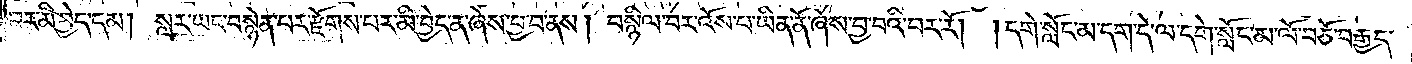བར་མི་བྱེད་དམ། སླར་ཡང་བསྙེན་པར་རྫོགས་པར་མི་བྱེད་ན་ཞེས་བྱ་བ་ནས། བསྙིལ་བར་འོས་པ་ཡིན་ནོ་ཞེས་བྱ་བའི་བར་རོ། །དགེ་སློང་མ་དག་དེ་ལ་དགེ་སློང་མ་ལོ་བཅོ་བརྒྱད་
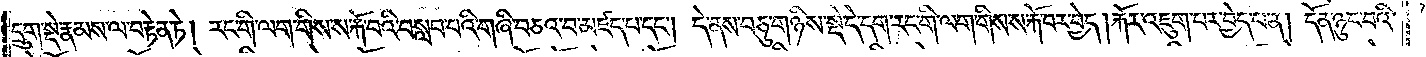དྲུག་སྡེ་རྣམས་ལ་བརྟེན་ཏེ། རང་གི་ལག་གིས་ས་རྐོ་བའི་བསླབ་པའི་གཞི་བཅའ་བ་མཛད་པ་དང༌། དེ་ནས་བཅུ་གཉིས་སྡེ་དེ་དག་རང་གི་ལག་གིས་ས་རྐོ་བར་བྱེད། རྐོར་འཇུག་པར་བྱེད་པ་ན། དོན་ཉུང་བའི་
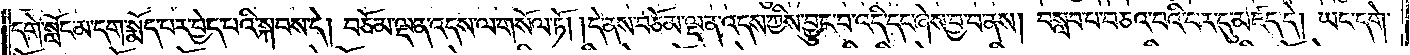དགེ་སློང་མ་དག་སྨོད་པར་བྱེད་པའི་སྐབས་དེ། བཅོམ་ལྡན་འདས་ལ་གསོལ་ཏོ། །དེ་ནས་བཅོམ་ལྡན་འདས་ཀྱིས་བྱུང་བ་འདི་དང་ཞེས་བྱ་བ་ནས། བསླབ་པ་བཅའ་བའི་བར་དུ་མཛད་དེ། ཡང་དགེ་
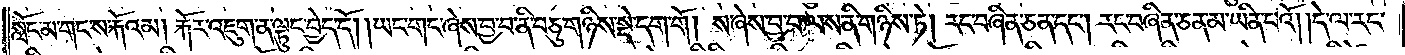སློང་མ་གང་ས་རྐོའམ། རྐོར་འཇུག་ན་ལྟུང་བྱེད་དོ། །ཡང་གང་ཞེས་བྱ་བ་ནི་བཅུ་གཉིས་སྡེ་དག་གོ། །ས་ཞེས་བྱ་བ་ལས་ནི་གཉིས་ཏེ། རང་བཞིན་ཅན་དང༌། རང་བཞིན་ཅན་མ་ཡིན་པའོ། །དེ་ལ་རང་
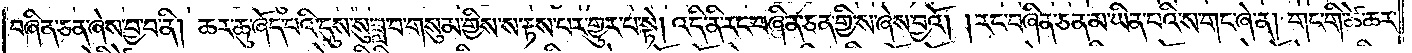བཞིན་ཅན་ཞེས་བྱ་བ་ནི། ཆར་ཆུ་ཞོད་པའི་དུས་སུ་ཟླ་བ་གསུམ་གྱིས་ས་རྟས་པར་གྱུར་པ་སྟེ། འདི་ནི་རང་བཞིན་ཅན་གྱི་ས་ཞེས་བྱའོ། །རང་བཞིན་ཅན་མ་ཡིན་པའི་ས་གང་ཞེ་ན། གང་གི་ཚེ་ཆར་
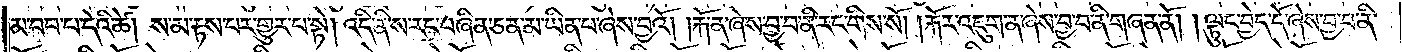མ་བབ་པ་དེའི་ཚེ། ས་མ་རྟས་པར་གྱུར་པ་སྟེ། འདི་ནི་ས་རང་བཞིན་ཅན་མ་ཡིན་པ་ཞེས་བྱའོ། །རྐོ་ན་ཞེས་བྱ་བ་ནི་རང་གིས་སོ། །རྐོར་འཇུག་ན་ཞེས་བྱ་བ་ནི་གཞན་ནོ། །ལྟུང་བྱེད་དོ་ཞེས་བྱ་བ་ནི་
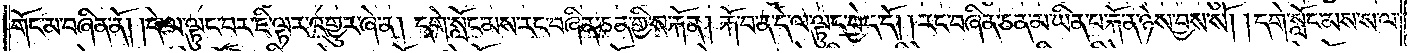གོང་མ་བཞིན་ནོ། །དེ་ལ་ལྟུང་བར་ཇི་ལྟར་འགྱུར་ཞེ་ན། དགེ་སློང་མས་རང་བཞིན་ཅན་གྱི་ས་རྐོ་ན། རྐོ་བ་ན་དེ་ལ་ལྟུང་བྱེད་དོ། །རང་བཞིན་ཅན་མ་ཡིན་པ་རྐོ་ན་ཉེས་བྱས་སོ། །དགེ་སློང་མས་ས་ལ་
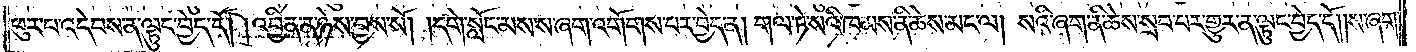ཕུར་པ་འདེབས་ན་ལྟུང་བྱེད་དོ། །འབྱིན་ན་ཉེས་བྱས་སོ། །དགེ་སློང་མས་ས་ཞག་འགོགས་པར་བྱེད་ན། གལ་ཏེ་སའི་ཁམས་ནི་ཆེས་མང་ལ། སའི་ཞག་ནི་ཆེས་སྲབ་པར་གྱུར་ན་ལྟུང་བྱེད་དོ། །ས་ཞག་
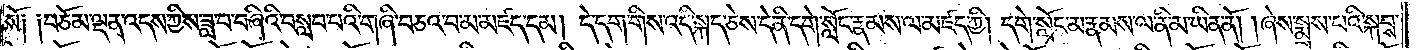སོ༑ ༑བཅོམ་ལྡན་འདས་ཀྱིས་ཟླ་བ་བཞིའི་བསླབ་པའི་གཞི་བཅའ་བ་མ་མཛད་དམ། དེ་དག་གིས་འདི་སྐད་ཅེས་དེ་ནི་དགེ་སློང་རྣམས་ལ་མཛད་ཀྱི། དགེ་སློང་མ་རྣམས་ལ་ནི་མ་ཡིན་ནོ། །ཞེས་སྨྲས་པའི་སྐབས་
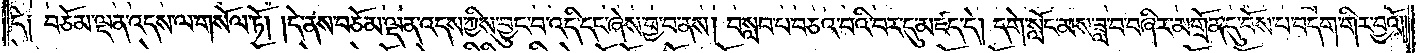དེ༑ བཅོམ་ལྡན་འདས་ལ་གསོལ་ཏོ། །དེ་ནས་བཅོམ་ལྡན་འདས་ཀྱིས་བྱུང་བ་འདི་དང་ཞེས་བྱ་བ་ནས། བསླབ་པ་བཅའ་བའི་བར་དུ་མཛད་དེ། དགེ་སློང་མས་ཟླ་བ་བཞིར་མགྲོན་དུ་བོས་པ་བདག་གིར་བྱའོ༎
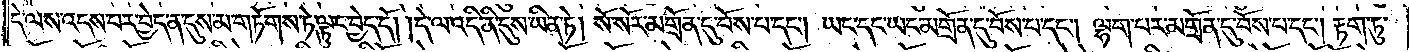དེ་ལས་འདས་པར་བྱེད་ན་དུས་མ་གཏོགས་ཏེ་ལྟུང་བྱེད་དོ། །དེ་ལ་འདི་ནི་དུས་ཡིན་ཏེ། སོ་སོར་མགྲོན་དུ་བོས་པ་དང༌། ཡང་དང་ཡང་མགྲོན་དུ་བོས་པ་དང༌། ལྷག་པར་མགྲོན་དུ་བོས་པ་དང༌། རྟག་ཏུ་
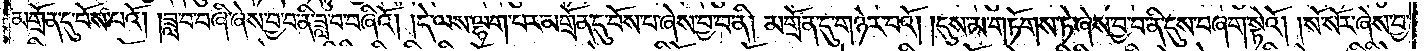མགྲོན་དུ་བོས་པའོ། །ཟླ་བ་བཞི་ཞེས་བྱ་བ་ནི་ཟླ་བ་བཞིའོ། །དེ་ལས་ལྷག་པར་མགྲོན་དུ་བོས་པ་ཞེས་བྱ་བ་ནི། མགྲོན་དུ་གཉེར་བའོ། །དུས་མ་གཏོགས་ཏེ་ཞེས་བྱ་བ་ནི་དུས་བཞག་སྟེའོ། །སོ་སོར་ཞེས་བྱ་
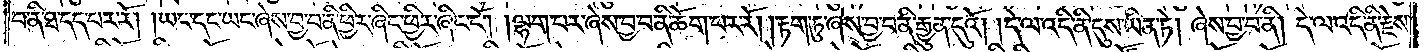བ་ནི་ཐ་དད་པར་རོ། །ཡང་དང་ཡང་ཞེས་བྱ་བ་ནི་ཕྱིར་ཞིང་ཕྱིར་ཞིང་ངོ༌། །ལྷག་པར་ཞེས་བྱ་བ་ནི་ཆོག་པར་རོ། །རྟག་ཏུ་ཞེས་བྱ་བ་ནི་རྒྱུན་དུའོ། །དེ་ལ་འདི་ནི་དུས་ཡིན་ཏེ། ཞེས་བྱ་བ་ནི། དེ་ལ་འདི་ནི་རྗེས་
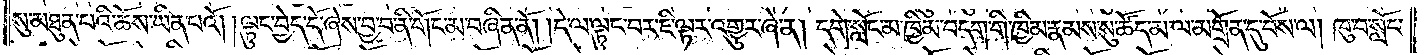སུ་མཐུན་པའི་ཆོས་ཡིན་པའོ། །ལྟུང་བྱེད་དོ་ཞེས་བྱ་བ་ནི་གོང་མ་བཞིན་ནོ། །དེ་ལ་ལྟུང་བར་ཇི་ལྟར་འགྱུར་ཞེ་ན། དགེ་སློང་མ་ཁྱིམ་བདག་གི་ཁྱིམ་རྣམས་སུ་ཚོད་མ་ལ་མགྲོན་དུ་བོས་ལ། ཁུ་བ་སློང་
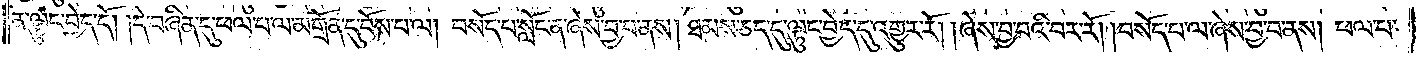ན་ལྟུང་བྱེད་དོ། །དེ་བཞིན་དུ་ཕལ་པ་ལ་མགྲོན་དུ་བོས་པ་ལ། བསོད་པ་སློང་ན་ཞེས་བྱ་བ་ནས། ཐམས་ཅད་དུ་ལྟུང་བྱེད་དུ་འགྱུར་རོ། །ཞེས་བྱ་བའི་བར་རོ། །བསོད་པ་ལ་ཞེས་བྱ་བ་ནས། ཕལ་པ་
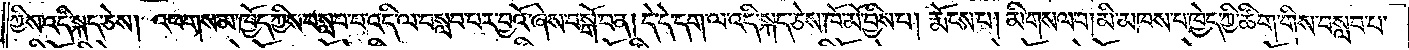ཀྱིས་འདི་སྐད་ཅེས། འཕགས་མ་ཁྱོད་ཀྱིས་བསླབ་པ་འདི་ལ་བསླབ་པར་བྱའོ་ཞེས་བསྒོ་བ་ན། དེ་དེ་དག་ལ་འདི་སྐད་ཅེས་ཁོ་མོ་བྱིས་པ། རྨོངས་པ། མི་གསལ་བ། མི་མཁས་པ་ཁྱེད་ཀྱི་ཚིག་གིས་བསླབ་པ་
